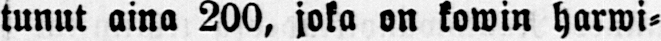tunut aina 200, joka on kowin harwi-
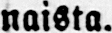naista.
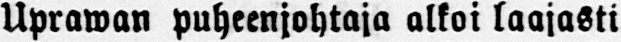Uprawan puheenjohtaja alkoi laajasti
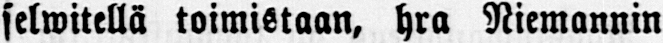selwitellä toimistaan, hra Niemannin
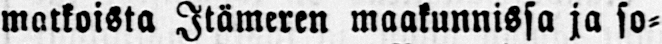matkoista Itämeren maakunnissa ja so-
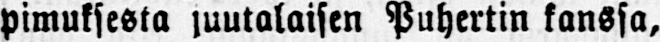pimuksesta juutalaisen Puhertin kanssa,
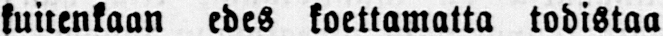kuitenkaan edes koettamalta todistaa
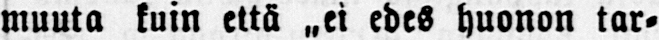muuta kuin että „ei edes huonon tar-
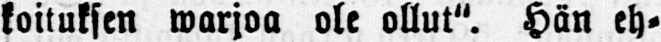koituksen warjoa ole ollut". Hän eh-
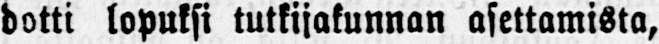dotti lopuksi tutkijakunnan asettamista,
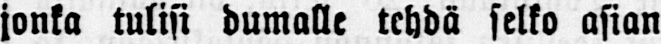jonka tulisi dumalle tehdä selko asian
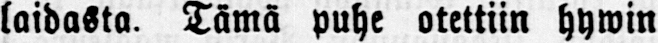laidasta. Tämä puhe otettiin hywin
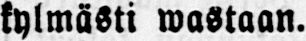kylmästi wastaan.
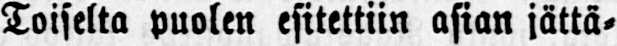Toiselta puolen esitettiin asian jättä-
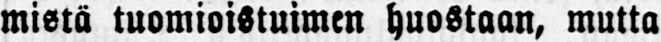mistä tuomioistuimen huostaan, mutta
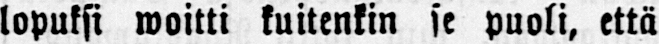lopuksi woitti kuitenkin se puoli, että
